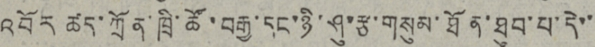འབོར ཚད་ཀྲོན་ཁྲི་ཚོ་བརྒྱ་དང་ཉི་ཤུ་རྩ་གསུམ་ཐོན་ཐུབ་པ་དེ་་
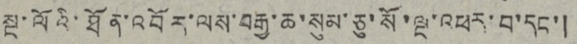སྔ་ལོའི་ཐོན་འབོར་ལས་བརྒྱ་ཆ་སུམ་ཅུ་སོ་ལྔ་འཕར་བ་དང་།
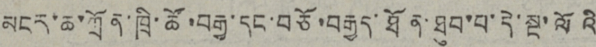མངར་ཆ་ཀྲོན་ཁྲི་ཚོ་བརྒྱ་དང་བཅོ་བརྒྱད་ཐོན་ཐུབ་པ་དེ་སྔ་ལོའི
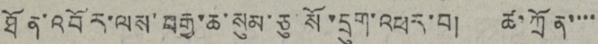ཐོན་འབོར་ལས་བརྒྱ་ཆ་སུམ་ཅུ་སོ་དྲུག་འཕར་བ། ཚ་ཀྲོན་་་་
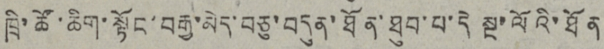ཁྲི་ཚོ་ཆིག་སྟོང་བརྒྱ་མེད་བཅུ་བདུན་ཐོན་ཐུབ་པ་དེ སྔ་ལོའི་ཐོན
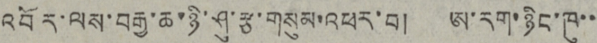འབོར་ལས་བརྒྱ་ཆ་ཉི་ཤུ་རྩ་གསུམ་འཕར་བ། ཨ་རག་ཉིང་ཁུ་་
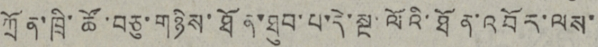ཀྲོན་ཁྲི་ཚོ་བཅུ་གཉིས་ཐོན་ཐུབ་པ་དེ་སྔ་ལོའི་ཐོན་འབོར་ལས་
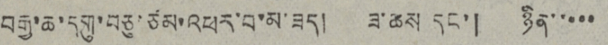བརྒྱ་ཆ་དགུ་བཅུ་ཙམ་འཕར་བ་མ་ཟད། ཟ་ཆས དང་། ཉིན་་་་་
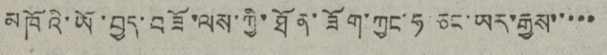མཁོའི་ཡོ་བྱད་བཟོ་ལས་ཀྱི་ཐོན་ཟོག་ཀྱང་ཧ་ཅང་ཡར་རྒྱས་་་་་
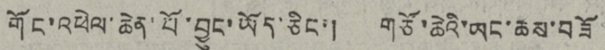གོང་འཕེལ་ཆེན་པོ་བྱུང་ཡོད་ཅིང་། གཙོ་ཆེའི་ཡང་ཆས་བཟོ
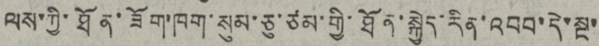ལས་ཀྱི་ཐོན་ཟོག་ཁག་སུམ་ཅུ་ཙམ་གྱི་ཐོན་སྐྱེད་རིན་འབབ་དེ་སྔ་
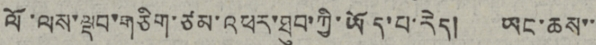ལོ་ལས་ལྡབ་གཅིག་ཙམ་འཕར་ཐུབ་ཀྱི་ཡོད་པ་རེད། ཡང་ཆས་་
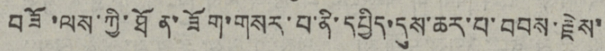བཟོ་ལས་ཀྱི་ཐོན་ཟོག་གསར་པ་ནི་དཔྱིད་དུས་ཆར་པ་བབས་རྗེས་
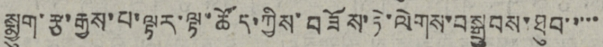སྨྲུག་རྩ་རྒྱས་པ་ལྟར་ལྟ་ཚོད་ཀྱིས་བཟོས་ཏེ་ལེགས་བསྒྲུབས་ཐུབ་་་་་
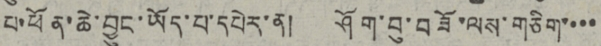པ་ཕོན་ཆེ་བྱུང་ཡོད་པ་དཔེར་ན། ཤོག་བུ་བཟོ་ལས་གཅིག་་་་
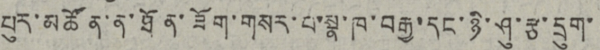པུར་མཚོན་ན་ཐོན་ཟོག་གསར་པ་སྣ་ཁ་བརྒྱ་དང་ཉི་ཤུ་རྩ་དྲུག་
